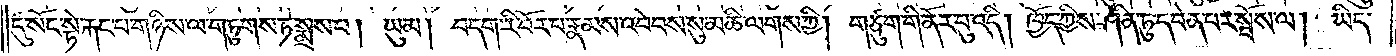དུ་སོང་སྟེ་རྐང་པ་གཉིས་ལ་གཏུགས་ཏེ་སྨྲས་པ། ཡུམ། བདག་རི་བོར་བ་རྣམས་འབེབས་སུ་མཆི་ལགས་ཀྱི། གཙུག་གི་ནོར་བུ་འདི། ཁྱོད་ཀྱིས་ཤིན་ཏུ་དབེན་པར་སྦོས་ལ། ཡིད་
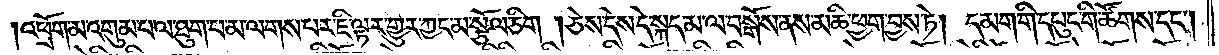།འཕྲོག་མ་འགུམ་པ་ལ་ཐུག་པ་མ་ལགས་པར་ཇི་ལྟར་གྱུར་ཀྱང་མ་སྩོལ་ཅིག །ཅེས་དེས་དེ་སྐད་མ་ལ་བསྒོས་ནས་མཆི་ཕྱག་བྱས་ཏེ། དམག་གི་དཔུང་གི་ཚོགས་དང༌།
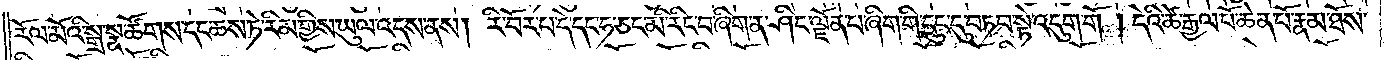རོལ་མོའི་སྒྲ་སྣ་ཚོགས་དང་ཆས་ཏེ་རིམ་གྱིས་ཡུལ་འདས་ནས། རི་བོར་བ་དེ་དང་ཧ་ཅང་མི་རིང་བ་ཞིག་ན་ཤིང་ལྗོན་པ་ཞིག་གི་དྲུང་དུ་བཏབ་སྟེ་འདུག་གོ །དེའི་ཚེ་རྒྱལ་པོ་ཆེན་པོ་རྣམ་ཐོས་
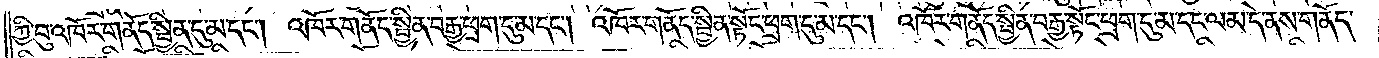ཀྱི་བུ་འཁོར་གནོད་སྦྱིན་དུ་མ་དང༌། འཁོར་གནོད་སྦྱིན་བརྒྱ་ཕྲག་དུ་མ་དང་འཁོར་གནོད་སྦྱིན་སྟོང་ཕྲག་དུ་མ་དང༌། འཁོར་གནོད་སྦྱིན་བརྒྱ་སྟོང་ཕྲག་དུ་མ་དང་ལམ་དེ་ནས་གནོད་
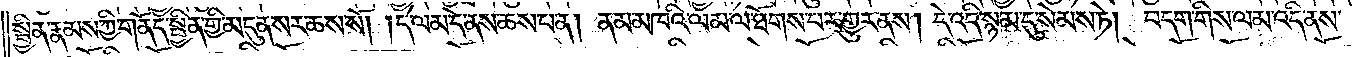སྦྱིན་རྣམས་ཀྱི་གནོད་སྦྱིན་གྱི་མདུན་སར་ཆས་སོ། །དེ་ལ་མ་དེ་ནས་ཆས་པ་ན། ནམ་མཁའི་ལམ་ལ་ཐོགས་པར་གྱུར་ནས། དེ་འདི་སྙམ་དུ་སེམས་ཏེ། བདག་གིས་ལམ་འདི་ནས་
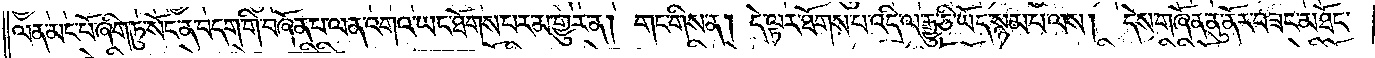ལན་མང་པོ་ཞིག་ཏུ་སོང་ན་བདག་གི་བཞོན་པ་ལན་འགའ་ཡང་ཐོགས་པར་མ་གྱུར་ན། གང་གིས་ན། དེ་ལྟར་ཐོགས་པ་འདི་ལྟ་རྒྱུ་ཅི་ཡོད་སྙམ་པ་ལས། དེས་གཞོན་ནུ་ནོར་བཟང་མཐོང་
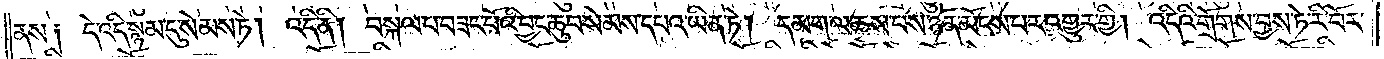ནས། དེ་འདི་སྙམ་དུ་སེམས་ཏེ། འདི་ནི། བསྐལ་པ་བཟང་པོའི་བྱང་ཆུབ་སེམས་དཔའ་ཡིན་ཏེ། དམག་ལ་ཆས་པས་ཉོན་མོངས་པར་འགྱུར་གྱི། འདིའི་གྲོགས་བྱས་ཏེ་རི་བོར་
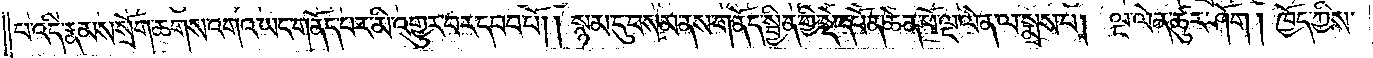པ་འདི་རྣམས་སྲོག་ཆགས་འགའ་ཡང་གནོད་པར་མི་འགྱུར་བར་དབབ་པོ། །སྙམ་དུ་བསམ་ནས་གནོད་སྦྱིན་གྱི་སྡེ་དཔོན་ཆེན་པོ་ལྔ་ལེན་ལ་སྨྲས་པ། ལྔ་ལེན་ཚུར་ཤོག །ཁྱོད་ཀྱིས་
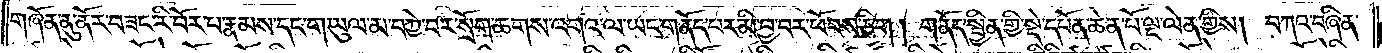གཞོན་ནུ་ནོར་བཟང་རི་བོར་པ་རྣམས་དང་གཡུལ་མ་བཀྱེ་བར་སྲོག་ཆགས་འགའ་ལ་ཡང་གནོད་པར་མི་བྱ་བར་ཕོབས་ཅིག །གནོད་སྦྱིན་གྱི་སྡེ་དཔོན་ཆེན་པོ་ལྔ་ལེན་གྱིས། བཀའ་བཞིན་
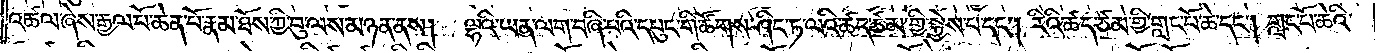འཚལ་ཞེས་རྒྱལ་པོ་ཆེན་པོ་རྣམ་ཐོས་ཀྱི་བུ་ལས་མཉན་ནས། ལྷའི་ཡན་ལག་བཞི་པའི་དཔུང་གི་ཚོགས་ཤིང་ཏ་ལའི་ཚད་ཙམ་གྱི་སྐྱེས་པ་དང༌། རིའི་ཚད་ཙམ་གྱི་གླང་པོ་ཆེ་དང༌། གླང་པོ་ཆེའི་
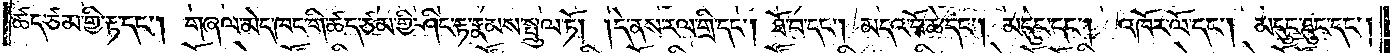ཚད་ཙམ་གྱི་རྟ་དང༌། གཞལ་མེད་ཁང་གི་ཚད་ཙམ་གྱི་ཤིང་རྟ་རྣམས་སྤྲུལ་ཏོ། །དེ་ནས་རལ་གྲི་དང༌། ཐོ་བ་དང༌། མདའ་བོ་ཆེ་དང༌། མདུང་དང༌། འཁོར་ལོ་དང༌། མདུང་ཐུང་དང༌།
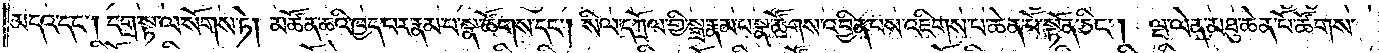མདའ་དང༌། དགྲ་སྟ་ལ་སོགས་ཏེ། མཚོན་ཆའི་ཁྱད་པར་རྣམ་པ་སྣ་ཚོགས་དང༌། སིལ་དཀྲོལ་གྱི་སྒྲ་རྣམ་པ་སྣ་ཚོགས་འབྱིན་པས་འཇིགས་པ་ཆེན་པོ་སྟོན་ཅིང༌། ལྔ་ལེན་མཐུ་ཆེན་པོ་ཚོགས་
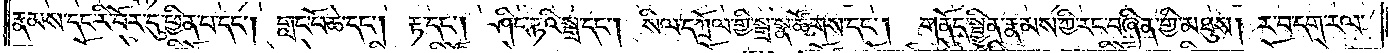རྣམས་དང་རི་བོར་དུ་ཕྱིན་པ་དང༌། གླང་པོ་ཆེ་དང༌། རྟ་དང༌། ཤིང་རྟའི་སྒྲ་དང༌། སིལ་དཀྲོལ་གྱི་སྒྲ་སྣ་ཚོགས་དང༌། གནོད་སྦྱིན་རྣམས་ཀྱི་རང་བཞིན་གྱི་མཐུས། ར་བ་དག་རལ་
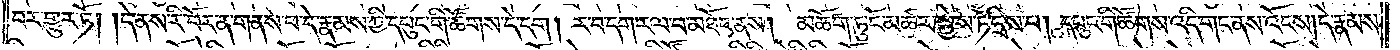བར་གྱུར་ཏོ། །དེ་ནས་རི་བོར་ན་གནས་པ་དེ་རྣམས་ཀྱི་དཔུང་གི་ཚོགས་དེ་དག ། ར་བ་དག་རལ་བ་མཐོང་ནས། མཆོག་ཏུ་ངོ་མཚར་སྐྱེས་ཏེ་དྲིས་པ། དཔུང་གི་ཚོགས་འདི་གང་ནས་འོངས། དེ་རྣམས་
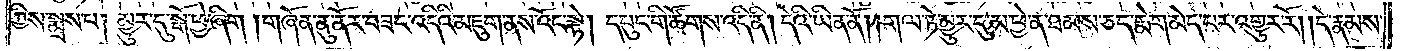ཀྱིས་སྨྲས་པ། མྱུར་དུ་སྒོ་ཕྱེ་ཞིག །གཞོན་ནུ་ནོར་བཟང་འདིའི་མཇུག་ནས་འོང་སྟེ། དཔུང་གི་ཚོགས་འདི་ནི། དེའི་ཡིན་ནོ། །གལ་ཏེ་མྱུར་དུ་མ་ཕྱེ་ན་ཐམས་ཅད་རྨེག་མེད་པར་འགྱུར་རོ། །དེ་རྣམས་
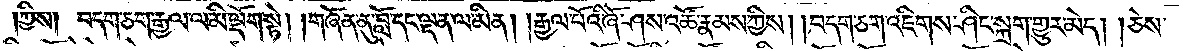ཀྱིས། བདག་ཅག་རྒྱལ་ལ་མི་ལྡོག་སྟེ། །གཞོན་ནུ་བློ་དང་ལྡན་ལ་མིན། །རྒྱལ་པོའི་ཞོ་ཤས་འཚོ་རྣམས་ཀྱིས། །བདག་ཅག་འཇིགས་ཤིང་སྐྲག་གྱུར་མེད། །ཅེས་
